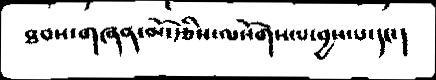ཐབས་གཞན་མོ་རྩིས་ལསོགས་པ་བྱས་པ་དང་།
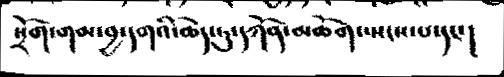སྲོག་གམ་བྱ་དགའི་ཆེད་ཏུ་དཀོན་མཆོག་སངས་པ་དང་།
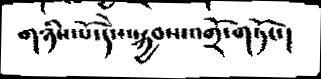གཉིས་པ་དེས་སྐྱབས་འགྲོ་གཏོང་།
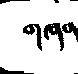གཞན
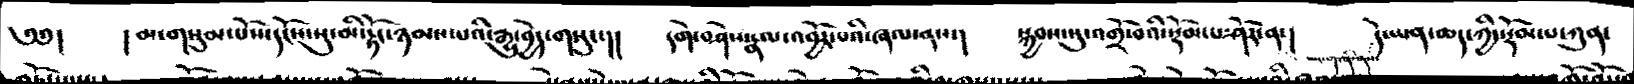༄༅།  །མ་གསུམ་པོས་དངོས་སུ་མི་རྟོང་ཉམས་པའི་རྒྱུ་བྱེད་གསུང་།།  དགེ་བཤེས་རྣལ་འབྱོར་ཞལ་ནས་།  སྐྱབས་སུ་འགྲོ་བའི་སྡོམ་པ་ཤོར་ན་།  དེ་ཡན་ཆད་ཀྱི་སྡོམ་པ་ཀུན་
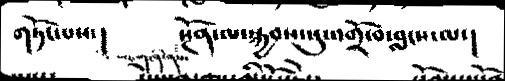གཏོང་པས་།  སྔོན་ལ་སྐྱབས་སུ་འགྲོ་བ་བླངས་ལ་།
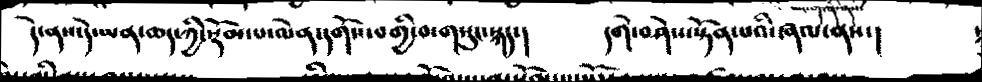དེ་ནས་དེ་ཡན་ཆད་ཀྱི་སྡོམ་པ་ལེན་དགོས་ནགྱི་བ་གསུང་སྐད་།  དགེ་བཤེས་སྟོན་པའི་ཞལ་ནས་།
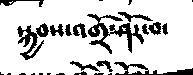སྐྱབས་འགྲོ་ཤོར་བ་
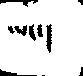ཡང་།
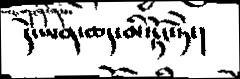དེ་ཡན་ཆད་མི་རྟོང་ཏེ་།
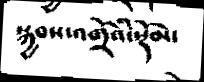སྐྱབས་འགྲོའི་སྡོམ་
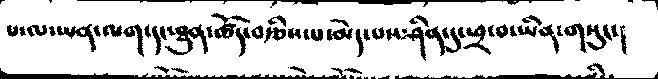པ་ལ་ཡན་ལག་དང་ཐུན་ཚོད་བརྩིས་པ་མེད་པས་ཤིན་དུ་ཕྲ་བ་ཡིན་གསུང་།
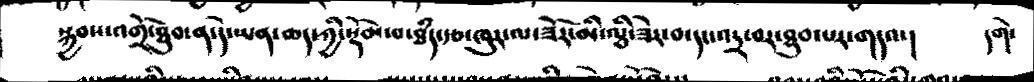སྐྱབས་འགྲོ་ཐུབ་ན་དེ་ཡན་ཆད་ཀྱི་སྡོམ་པ་ཐཾད་རྩ་ཁུར་ལ་ཟོར་མི་ལྕི་ཟེར་བ་དང་འདྲ་བར་ཐུབ་པར་གདའ་།   དགེ་
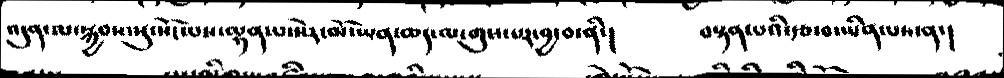འདུན་ལ་སྐྱབས་སུ་སོང་པས་ལྷན་པ་སེར་མོ་ཡན་ཆད་ལ་གུས་པར་བྱ་བ་ནི་།  བསྟན་པའི་རྩ་བ་ཡིན་པས་ན་།
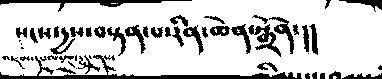སངས་དྱས་བསྟན་པ་རིན་ཆེན་སྒྲོན་།།
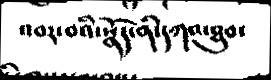འབར་བའི་སྣོད་ནི་དཀའ་ཐུབ་
